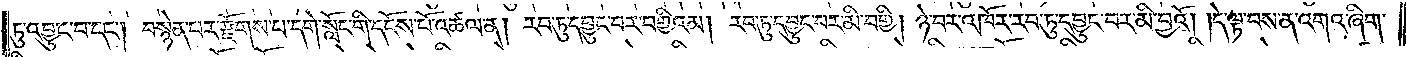ཏུ་འབྱུང་བ་དང༌། བསྙེན་པར་རྫོགས་པ་དགེ་སློང་གི་དངོས་པོ་འཚལ་ན། རབ་ཏུ་དབྱུང་བར་བགྱིའམ། རབ་ཏུ་དབྱུང་བར་མི་བགྱི། ཉེ་བར་འཁོར་རབ་ཏུ་དབྱུང་བར་མི་བྱའོ། །དེ་ལྟ་བས་ན་འགའ་ཞིག་
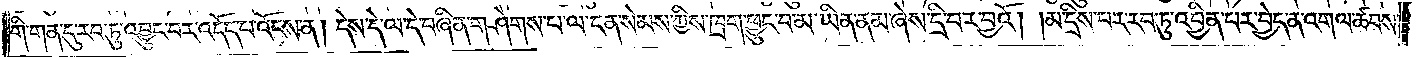གི་གན་དུ་རབ་ཏུ་འབྱུང་བར་འདོད་པ་འོངས་ན། དེས་དེ་ལ་དེ་བཞིན་གཤེགས་པ་ལ་ངན་སེམས་ཀྱིས་ཁྲག་ཕྱུང་བ་མ་ཡིན་ནམ་ཞེས་དྲི་བར་བྱའོ། །མ་དྲིས་པར་རབ་ཏུ་འབྱིན་པར་བྱེད་ན་འགལ་ཚབས་
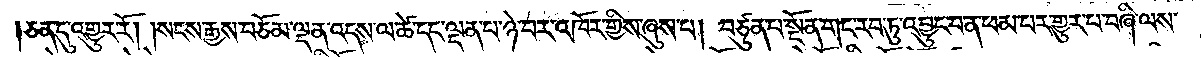ཅན་དུ་འགྱུར་རོ། །སངས་རྒྱས་བཅོམ་ལྡན་འདས་ལ་ཚེ་དང་ལྡན་པ་ཉེ་བར་འཁོར་གྱིས་ཞུས་པ། བཙུན་པ་སྔོན་གང་རབ་ཏུ་འབྱུང་བ་ན་ཕམ་པར་གྱུར་པ་བཞི་ལས་
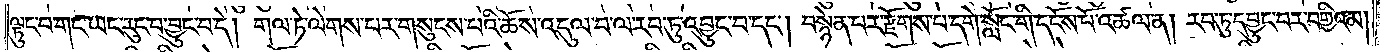ལྟུང་བ་གང་ཡང་རུང་བ་བྱུང་བ་དེ། གལ་ཏེ་ལེགས་པར་གསུངས་པའི་ཆོས་འདུལ་བ་ལ་རབ་ཏུ་འབྱུང་བ་དང༌། བསྙེན་པར་རྫོགས་པ་དགེ་སློང་གི་དངོས་པོ་འཚལ་ན། རབ་ཏུ་དབྱུང་བར་བགྱིའམ།
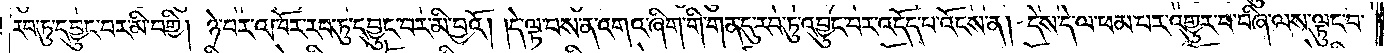རབ་ཏུ་དབྱུང་བར་མི་བགྱི། ཉེ་བར་འཁོར་རབ་ཏུ་དབྱུང་བར་མི་བྱའོ། །དེ་ལྟ་བས་ན་འགའ་ཞིག་གི་གན་དུ་རབ་ཏུ་འབྱུང་བར་འདོད་པ་འོངས་ན། དེས་དེ་ལ་ཕམ་པར་འགྱུར་བ་བཞི་ལས་ལྟུང་བ་
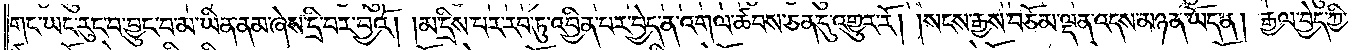གང་ཡང་རུང་བ་བྱུང་བ་མ་ཡིན་ནམ་ཞེས་དྲི་བར་བྱའོ། །མ་དྲིས་པར་རབ་ཏུ་འབྱིན་པར་བྱེད་ན་འགལ་ཚབས་ཅན་དུ་འགྱུར་རོ། །སངས་རྒྱས་བཅོམ་ལྡན་འདས་མཉན་ཡོད་ན། རྒྱལ་བྱེད་ཀྱི་
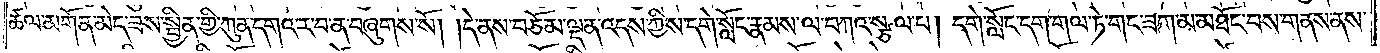ཚལ་མགོན་མེད་ཟས་སྦྱིན་གྱི་ཀུན་དགའ་ར་བ་ན་བཞུགས་སོ། །དེ་ནས་བཅོམ་ལྡན་འདས་ཀྱིས་དགེ་སློང་རྣམས་ལ་བཀའ་སྩལ་པ། དགེ་སློང་དག་གལ་ཏེ་གང་ཟག་མ་མཐོང་བས་གནས་ནས་
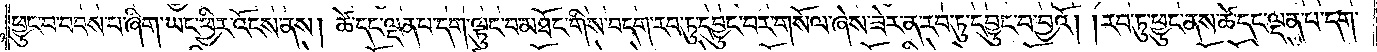ཕྱུང་བ་བབས་པ་ཞིག་ཡང་ཕྱིར་འོངས་ནས། ཚེ་དང་ལྡན་པ་དག་ལྟུང་བ་མཐོང་གིས་བདག་རབ་ཏུ་དབྱུང་བར་གསོལ་ཞེས་ཟེར་ན་རབ་ཏུ་དབྱུང་བ་བྱའོ། །རབ་ཏུ་ཕྱུང་ནས་ཚེ་དང་ལྡན་པ་དག་
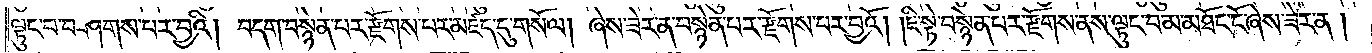ལྟུང་བ་བཤགས་པར་བྱའི། བདག་བསྙེན་པར་རྫོགས་པར་མཛད་དུ་གསོལ། ཞེས་ཟེར་ན་བསྙེན་པར་རྫོགས་པར་བྱའོ། །ཇི་སྟེ་བསྙེན་པར་རྫོགས་ནས་ལྟུང་བ་མ་མཐོང་ངོ་ཞེས་ཟེར་ན།
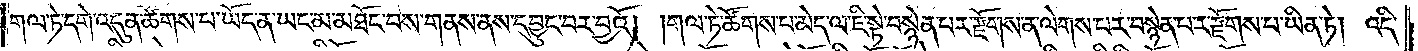གལ་ཏེ་དགེ་འདུན་ཚོགས་པ་ཡོད་ན་ཡང་མ་མཐོང་བས་གནས་ནས་དབྱུང་བར་བྱའོ། །གལ་ཏེ་ཚོགས་པ་མེད་ལ་ཇི་སྟེ་བསྙེན་པར་རྫོགས་ན་ལེགས་པར་བསྙེན་པར་རྫོགས་པ་ཡིན་ཏེ། འདི་
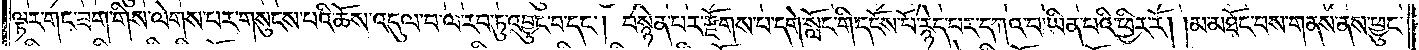ལྟར་གང་ཟག་གིས་ལེགས་པར་གསུངས་པའི་ཆོས་འདུལ་བ་ལ་རབ་ཏུ་འབྱུང་བ་དང༌། བསྙེན་པར་རྫོགས་པ་དགེ་སློང་གི་དངོས་པོ་རྙེད་པར་དཀའ་བ་ཡིན་པའི་ཕྱིར་རོ། །མ་མཐོང་བས་གནས་ནས་ཕྱུང་
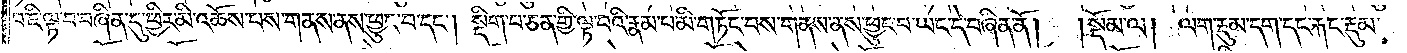བ་ཇི་ལྟ་བ་བཞིན་དུ་ཕྱིར་མི་འཆོས་པས་གནས་ནས་ཕྱུང་བ་དང༌། སྡིག་པ་ཅན་གྱི་ལྟ་བའི་རྣམ་པ་མི་གཏོང་བས་གནས་ནས་ཕྱུང་བ་ཡང་དེ་བཞིན་ནོ། །སྡོམ་ལ། ལག་རྡུམ་དག་དང་རྐང་རྡུམ་
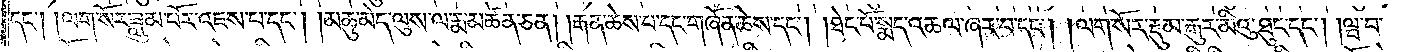དང༌། །ལག་སོར་ཟླུམ་པོར་འཇུས་པ་དང༌། །མཆུ་མེད་ལུས་ལ་རྨ་མཚན་ཅན། །རྒན་ཆེས་པ་དང་གཞོན་ཆེས་དང༌། །ཐེང་པོ་སྨད་འཆལ་ཞར་བ་དང༌། །ལག་སོར་རྡུམ་རྒུར་མིའུ་ཐུང་དང༌། །ལྦ་བ་
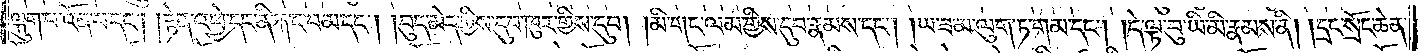ལྐུག་པ་འོན་པ་དང༌། །རྟེན་འཕྱེ་དང་ནི་རྐང་བམ་དང༌། །བུད་མེད་ཀྱིས་དུབ་ཁུར་གྱིས་དུབ། །མི་གང་ལམ་གྱིས་དུབ་རྣམས་དང༌། །ཡ་ཟ་མ་ལུག་ཏ་གམ་དང༌། །དེ་ལྟ་བུ་ཡི་མི་རྣམས་ནི། །དྲང་སྲོང་ཆེན་
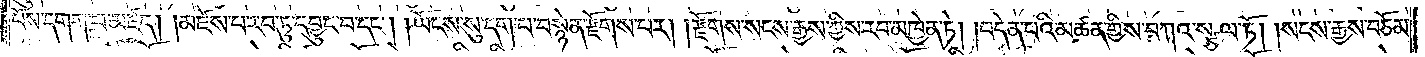པོས་དགག་པ་མཛད། །མཛེས་པ་རབ་ཏུ་དབྱུང་བ་དང༌། །ཡོངས་སུ་དག་པ་བསྙེན་རྫོགས་པར། །རྫོགས་སངས་རྒྱས་ཀྱིས་རབ་མཁྱེན་ཏེ། །བདེན་པའི་མཚན་གྱིས་བཀའ་སྩལ་ཏོ། །སངས་རྒྱས་བཅོམ་
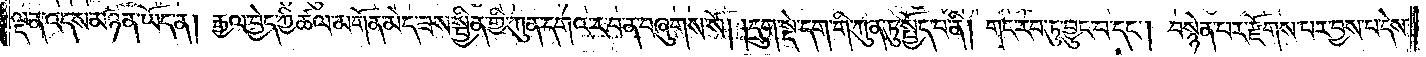ལྡན་འདས་མཉན་ཡོད་ན། རྒྱལ་བྱེད་ཀྱི་ཚལ་མགོན་མེད་ཟས་སྦྱིན་གྱི་ཀུན་དགའ་ར་བ་ན་བཞུགས་སོ། །དྲུག་སྡེ་དག་གི་ཀུན་ཏུ་སྤྱོད་པ་ནི། གང་རབ་ཏུ་བྱུང་བ་དང༌། བསྙེན་པར་རྫོགས་པར་བྱས་པ་དེས་
